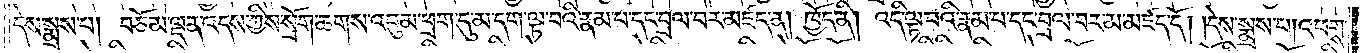དེས་སྨྲས་པ། བཅོམ་ལྡན་འདས་ཀྱིས་སྲོག་ཆགས་འབུམ་ཕྲག་དུ་མ་དག་ལྟ་བའི་རྣམ་པ་དང་བྲལ་བར་མཛད་ན། ཁྱོད་ནི། འདི་ལྟ་བའི་རྣམ་པ་དང་བྲལ་བར་མ་མཛད་དོ། །དེས་སྨྲས་པ། འཕགས་
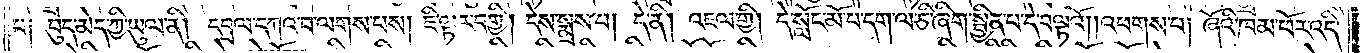པ༑ བུད་མེད་ཀྱི་ཡུལ་ནི། དབྲལ་དཀའ་བ་ལགས་པས། ཇི་ལྟར་བགྱི། དེས་སྨྲས་པ། དེ་ནི། འཇལ་གྱི། དེ་སློང་མོ་པ་དག་ལ་ཅི་ཞིག་སྦྱིན་པ་དེ་བལྟའོ། །འཕགས་པ། ཞོའི་ཁམ་ཕོར་འདི་
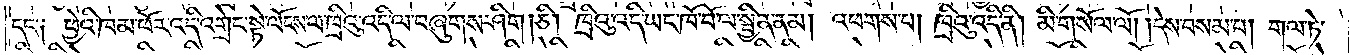དང་༑ ཕྱེའི་ཁམ་ཕོར་འདི་འགྲེང་སྟེ་ལོངས་ལ་ཁྲིའུ་འདི་ལ་བཞུགས་ཤིག །ཅི། ཁྲིའུ་འདི་ཡང་ཁོ་བོ་ལ་སྦྱིན་ནམ། འཕགས་པ། ཁྲིའུ་འདི་ནི། མི་གསོལ་ལོ། །དེས་བསམ་པ། གལ་ཏེ་
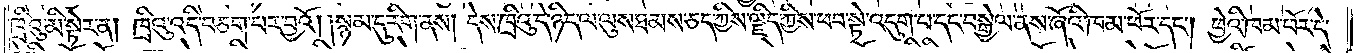ཁྲིའུ་མི་སྟེར་ན། ཁྲིའུ་འདི་བཅག་པར་བྱའོ། །སྙམ་དུ་རིག་ནས། དེས་ཁྲིའུ་དེ་ཉིད་ལ་ལུས་ཐམས་ཅད་ཀྱིས་ལྗིད་ཀྱིས་ཕབ་སྟེ་འདུག་པ་དང་བསྒྱེལ་ནས་ཞོའི་ཁམ་ཕོར་དང༌། ཕྱེའི་ཁམ་ཕོར་དེ་
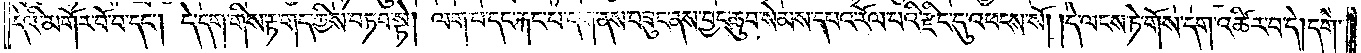དེའི་མགོར་བོ་བ་དང༌། དེ་དག་གིས་རྟ་གད་ཀྱིས་བཏབ་སྟེ། ལག་པ་དང་རྐང་པ་དག་ནས་བཟུང་ནས་བྱང་ཆུབ་སེམས་དཔའ་རོལ་པའི་རྫིང་དུ་འཕངས་སོ། །དེ་ལངས་ཏེ་གོས་དག་འཚིར་བ་དེ། དགེ་
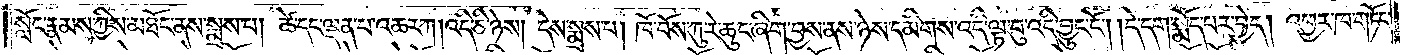སློང་རྣམས་ཀྱིས་མཐོང་ནས་སྨྲས་པ། ཚེ་དང་ལྡན་པ་འཆར་ཀ། འདི་ཅི་ཉེས། དེས་སྨྲས་པ། ཁོ་བོས་ཀུ་རེ་ཆུང་ཞིག་བྱས་ནས་ཉེས་དམིགས་འདི་ལྟ་བུ་འདི་བྱུང་ངོ༌། །དེ་དག་སྨོད་པར་བྱེད། འཕྱར་ཁ་གཏོང་
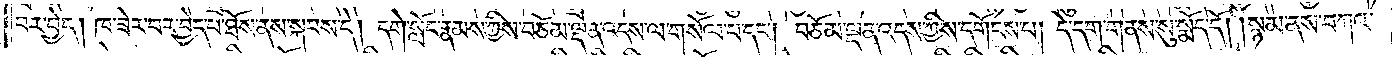བར་བྱེད། ཁ་ཟེར་བར་བྱེད་པ་ཐོས་ནས་སྐབས་དེ། དགེ་སློང་རྣམས་ཀྱིས་བཅོམ་ལྡན་འདས་ལ་གསོལ་པ་དང༌། བཅོམ་ལྡན་འདས་ཀྱིས་དགོངས་པ། དེ་དག་གནས་སུ་སྨོད་དོ། །སྙམ་ནས་བཀའ་
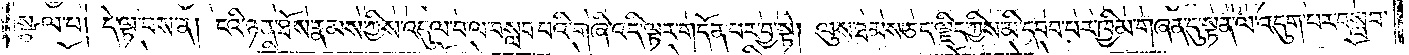སྩལ་པ། དེ་ལྟ་བས་ན། ངའི་ཉན་ཐོས་རྣམས་ཀྱིས་འདུལ་བ་ལ་བསླབ་པའི་གཞི་འདི་ལྟར་གདོན་པར་བྱ་སྟེ། ལུས་ཐམས་ཅད་ལྗིད་ཀྱིས་མི་དབབ་པར་ཁྱིམ་གཞན་དུ་སྟན་ལ་འདུག་པར་བསླབ་
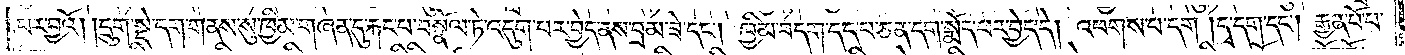པར་བྱའོ། །དྲུག་སྡེ་དག་གནས་སུ་ཁྱིམ་གཞན་དུ་རྐང་པ་བསྣོལ་ཏེ་འདུག་པར་བྱེད་ནས་བྲམ་ཟེ་དང༌། ཁྱིམ་བདག་དད་པ་ཅན་དག་སྨོད་པར་བྱེད་དེ། འཕགས་པ་དང༌། དྭ་དག་དང༌། རྒྱན་པོ་པ་
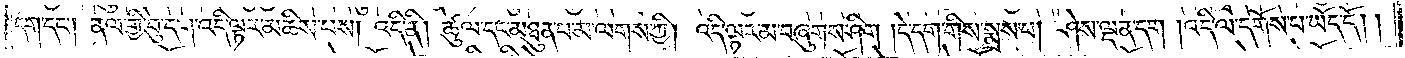དག་དང༌། ནལ་གྱི་བུ་དག་འདི་ལྟར་མཆིས་པས། འདི་ནི། ཚུལ་དང་མཐུན་པ་མ་ལགས་ཀྱི། འདི་ལྟར་མ་བཞུགས་ཤིག །དེ་དག་གིས་སྨྲས་པ། ཤེས་ལྡན་དག །འདི་ལ་དགོས་པ་ཡོད་དོ། །
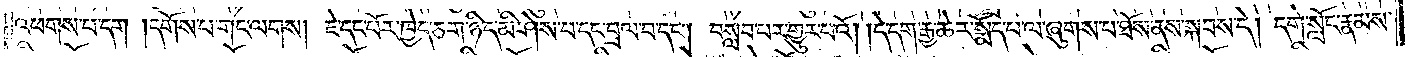འཕགས་པ་དག །དགོས་པ་གང་ལགས། ཇེ་དང་པོར་ཁྱེད་ཅག་ཉིད་མི་ཤེས་པ་དང་བྲལ་བ་དང༌། བསླབ་པར་གྱུར་པའོ། །དེ་དག་རྒྱ་ཆེར་སྨོད་པ་ལ་ཞུགས་པ་ཐོས་ནས་སྐབས་དེ། དགེ་སློང་རྣམས་
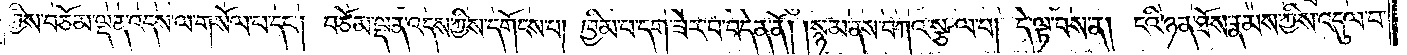ཀྱིས་བཅོམ་ལྡན་འདས་ལ་གསོལ་པ་དང༌། བཅོམ་ལྡན་འདས་ཀྱིས་དགོངས་པ། ཁྱིམ་པ་དག་ཟེར་བ་བདེན་ནོ། །སྙམ་ནས་བཀའ་སྩལ་པ། དེ་ལྟ་བས་ན། ངའི་ཉན་ཐོས་རྣམས་ཀྱིས་འདུལ་བ་
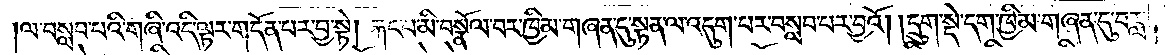།ལ་བསླབ་པའི་གཞི་འདི་ལྟར་གདོན་པར་བྱ་སྟེ། རྐང་པ་མི་བསྣོལ་བར་ཁྱིམ་གཞན་དུ་སྟན་ལ་འདུག་པར་བསླབ་པར་བྱའོ། །དྲུག་སྡེ་དག་ཁྱིམ་གཞན་དུ་བརླ་
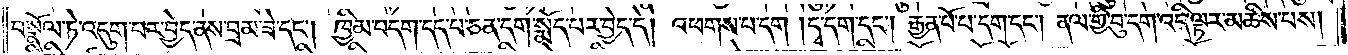བསྣོལ་ཏེ་འདུག་པར་བྱེད་ནས་བྲམ་ཟེ་དང༌། ཁྱིམ་བདག་དད་པ་ཅན་དག་སྨོད་པར་བྱེད་དེ། འཕགས་པ་དག །དྭ་དག་དང༌། རྒྱན་པོ་པ་དག་དང༌། ནལ་གྱི་བུ་དག་འདི་ལྟར་མཆིས་པས།
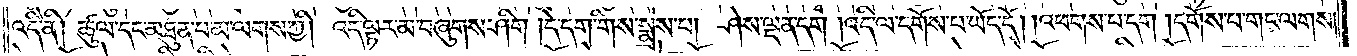འདི་ནི། ཚུལ་དང་མཐུན་པ་མ་ལགས་ཀྱི། འདི་ལྟར་མ་བཞུགས་ཤིག །དེ་དག་གིས་སྨྲས་པ། ཤེས་ལྡན་དག །འདི་ལ་དགོས་པ་ཡོད་དོ། །འཕགས་པ་དག །དགོས་པ་གང་ལགས་
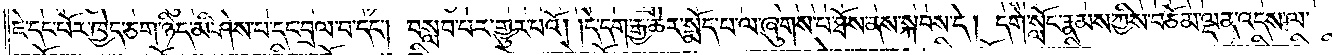ཇེ་དང་པོར་ཁྱེད་ཅག་ཉིད་མི་ཤེས་པ་དང་བྲལ་བ་དང༌། བསླབ་པར་གྱུར་པའོ། །དེ་དག་རྒྱ་ཆེར་སྨོད་པ་ལ་ཞུགས་པ་ཐོས་ནས་སྐབས་དེ། དགེ་སློང་རྣམས་ཀྱིས་བཅོམ་ལྡན་འདས་ལ་
